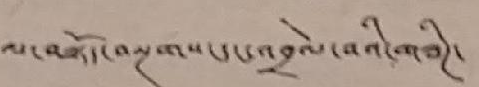ལ་བསྟོད་བསྔགས་དང་འབྲེལ་བའི་གཟིཊ་
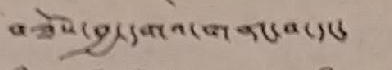བཟོས་བྱ་དགའ་གནང་བ་དང་ སླད་
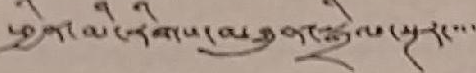ཕྱིན་མི་རིགས་མཐུན་སྒྲིལ་སྔར་་་་
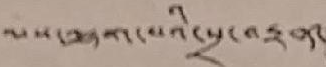ལས་ལྷག་པའི་སྲ་བརྟན་
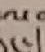དང་
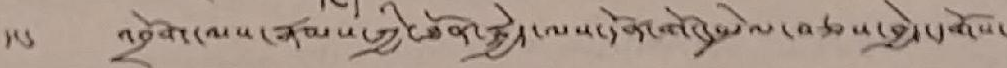དང་ འབྲོག་ལས་རྣམས་ཀྱི་ཐོན་སྐྱེད་ལས་དོན་གོང་སྤེལ་བཅས་བྱེད་དགོས་
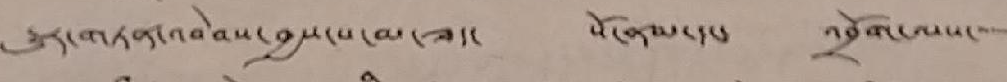རྒྱུར་གཏན་འབེབས་བྱས་པ་མ་ཟད་ སོ་ནམ་དང་ འབྲོག་ལས་་་་
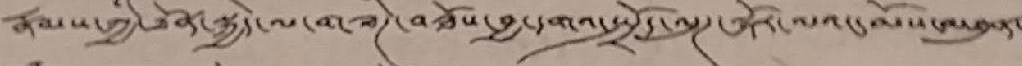རྣམས་ཀྱི་ཐོན་སྐྱེད་ལ་གཟིཊ་བཟོས་བྱ་དགའ་སྤྲོད་ལུཊ་སྐོར་ལའང་མོས་མཐུན་
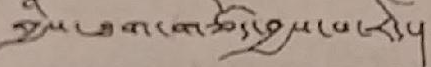གྱིས་ཐག་གཅོད་བྱས་པ་རེད།
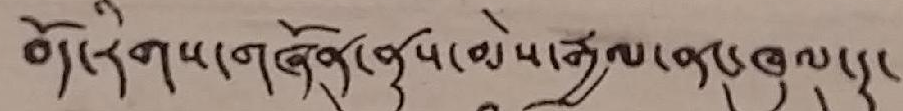བོད་རིགས་གཞོན་ནུས་མེས་རྒྱལ་ནང་ཁུལ་དུ་
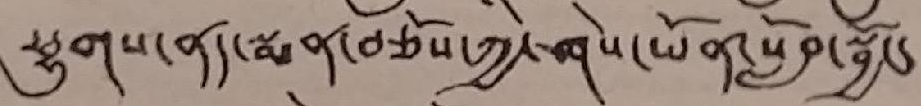ཕྱུགས་ནད་སྨན་བཅོས་ཀྱི་ཤེས་ཡོན་སློབ་སྦྱོང་
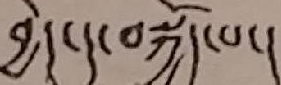བྱེད་དུ་བསྐྱོད་པ་།
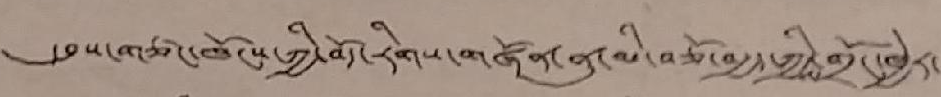དབུས་གཙང་ཁོངས་ཀྱི་བོད་རིགས་གཞོན་ནུ་མི་བཅོ་བརྒྱད་ཀྱི་གྲོང་ཁྱེར་
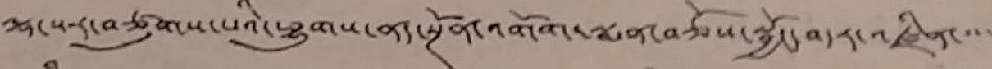ལྷ་སར་བཙུགས་པའི་ཕྱུགས་ནད་སྔོན་འགོག་སྨན་བཅོས་སྦྱོང་བདར་འཛིན་་་་
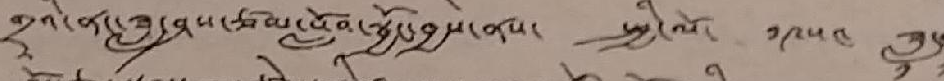གྲྭའི་ནང་ཟླ་ཤས་ཙམ་སློབ་སྦྱོང་བྱས་ནས་ སྤྱི་ལོ་ ༡༩༥༤ ཟླ་
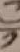༡
